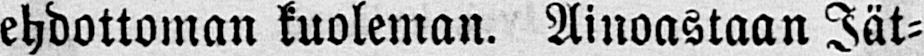ehdottoman kuoleman. Ainoastaan Jät-
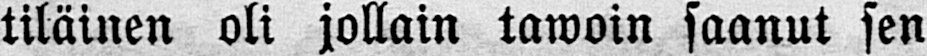tiläinen oli jollain tawoin saanut sen
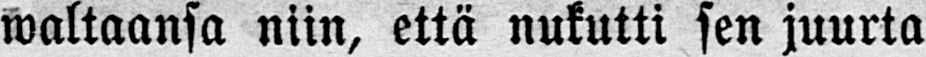waltaansa niin, että nukutti sen juurta
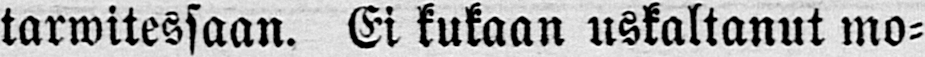tarwitessaan. Ei kukaan uskaltanut mo-
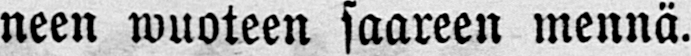neen wuoteen saareen mennä.
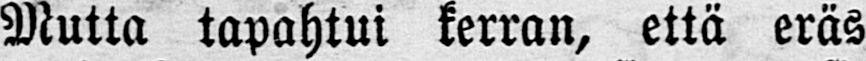Mutta tapahtui kerran, että eräs
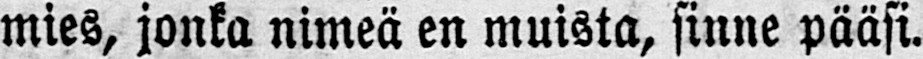mies, jonka nimeä en muista, sinne pääsi.
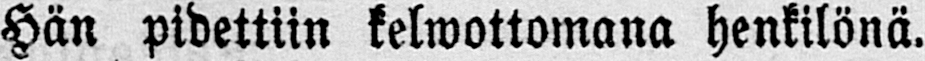Hän pidettiin kelwottomana henkilönä.
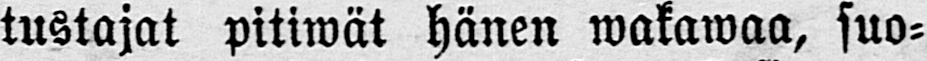tustajat pitiwät hänen wakawaa, suo-
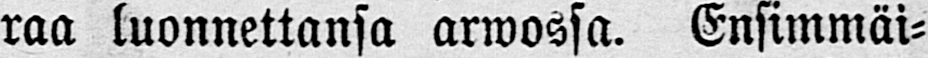raa luonnettansa arwossa. Ensimmäi-
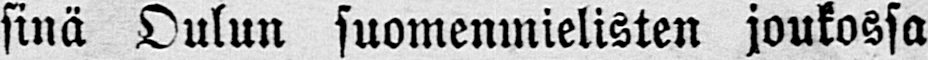sinä Oulun suomenmielisten joukossa
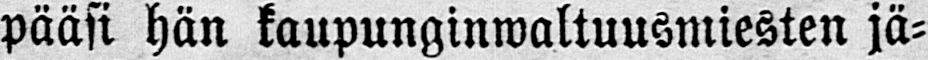pääsi hän kaupunginwaltuusmiesten jä-
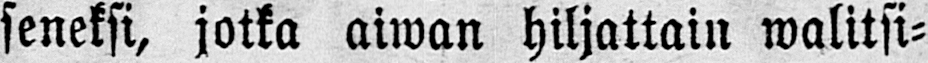seneksi, jotka aiwan hiljattain walitsi-
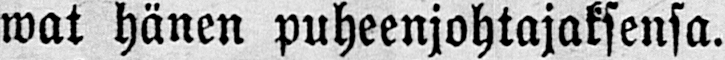wat hänen puheenjohtajaksensa.
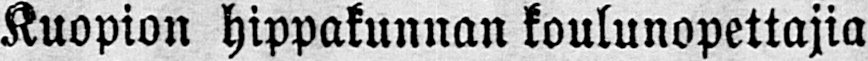Kuopion hippakunnan koulunopettajia
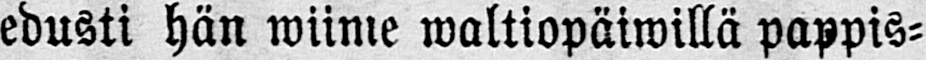edusti hän wiime waltiopäiwillä pappis-
